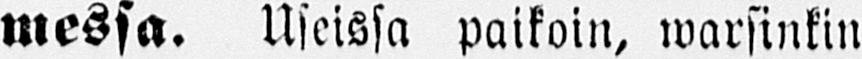messa. Useissa paikoin, warsinkin
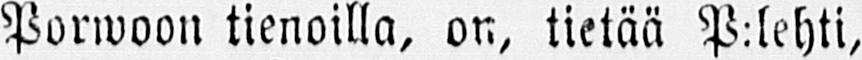Porwoon tienoilla, on, tietää P:lehti,
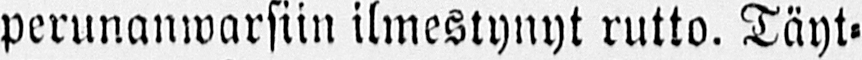perunanwarsiin ilmestynyt rutto. Täyt-
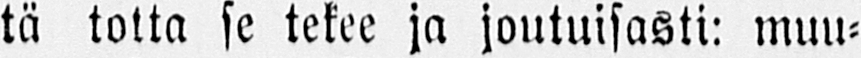tä totta se tekee ja joutuisasti: muu-
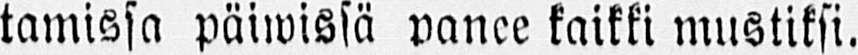tamissa päiwissä panee kaikki mustiksi.
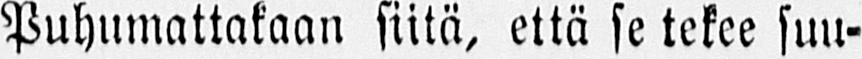Puhumattakaan siitä, että se tekee suu-
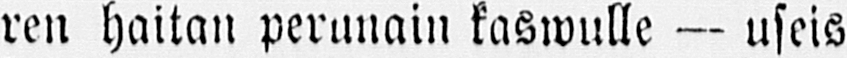ren haitan perunain kaswulle — useis-
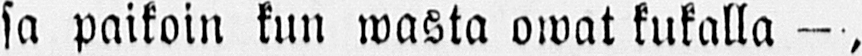sa paikoin kun wasta owat kukalla — ,
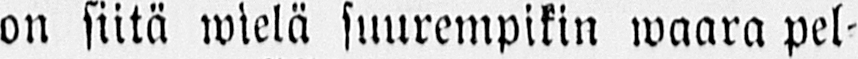on siitä wielä suurempikin waara pel-
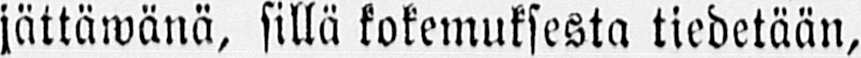jättäwänä, sillä kokemuksesta tiedetään,
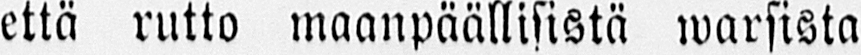että rutto maanpäällisistä warsista
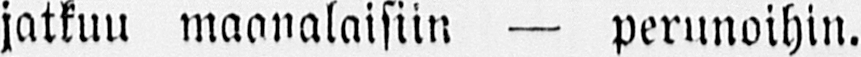jatkuu maanalaisiin — perunoihin.
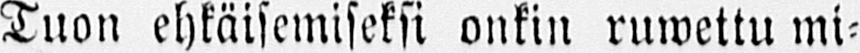Tuon ehkäisemiseksi onkin ruwettu mi-
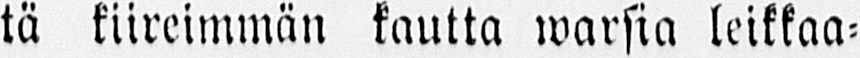tä kiireimmän kautta warsia leikkaa-
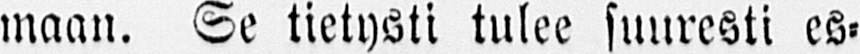maan. Se tietysti tulee suuresti es-
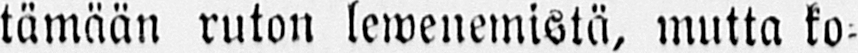tämään ruton lewenemistä, mutta ko-
